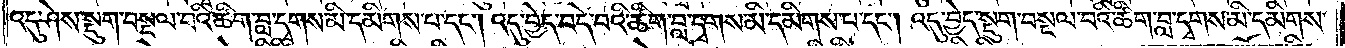འདུ་ཤེས་སྡུག་བསྔལ་བའི་ཚིག་བླ་དྭགས་མི་དམིགས་པ་དང༌། འདུ་བྱེད་བདེ་བའི་ཚིག་བླ་དྭགས་མི་དམིགས་པ་དང༌། འདུ་བྱེད་སྡུག་བསྔལ་བའི་ཚིག་བླ་དྭགས་མི་དམིགས་
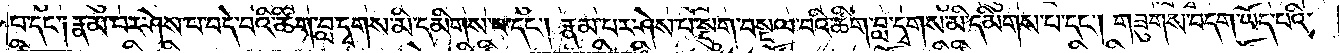པ་དང་༑ རྣམ་པར་ཤེས་པ་བདེ་བའི་ཚིག་བླ་དྭགས་མི་དམིགས་པ་དང༌། རྣམ་པར་ཤེས་པ་སྡུག་བསྔལ་བའི་ཚིག་བླ་དྭགས་མི་དམིགས་པ་དང༌། གཟུགས་བདག་ཡོད་པའི་
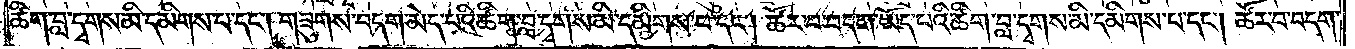ཚིག་བླ་དྭགས་མི་དམིགས་པ་དང༌། གཟུགས་བདག་མེད་པའི་ཚིག་བླ་དྭགས་མི་དམིགས་པ་དང༌། ཚོར་བ་བདག་ཡོད་པའི་ཚིག་བླ་དྭགས་མི་དམིགས་པ་དང༌། ཚོར་བ་བདག་
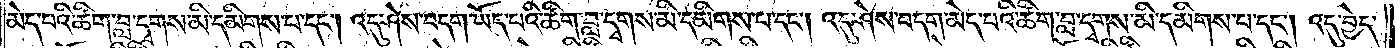མེད་པའི་ཚིག་བླ་དྭགས་མི་དམིགས་པ་དང༌། འདུ་ཤེས་བདག་ཡོད་པའི་ཚིག་བླ་དྭགས་མི་དམིགས་པ་དང༌། འདུ་ཤེས་བདག་མེད་པའི་ཚིག་བླ་དྭགས་མི་དམིགས་པ་དང༌། འདུ་བྱེད་
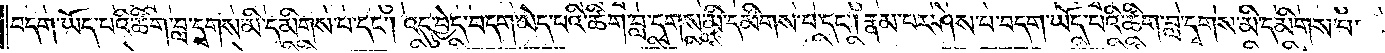བདག་ཡོད་པའི་ཚིག་བླ་དྭགས་མི་དམིགས་པ་དང༌། འདུ་བྱེད་བདག་མེད་པའི་ཚིག་བླ་དྭགས་མི་དམིགས་པ་དང༌། རྣམ་པར་ཤེས་པ་བདག་ཡོད་པའི་ཚིག་བླ་དྭགས་མི་དམིགས་པ་
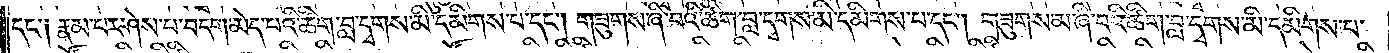དང་༑ རྣམ་པར་ཤེས་པ་བདག་མེད་པའི་ཚིག་བླ་དྭགས་མི་དམིགས་པ་དང༌། གཟུགས་ཞི་བའི་ཚིག་བླ་དྭགས་མི་དམིགས་པ་དང༌། གཟུགས་མ་ཞི་བའི་ཚིག་བླ་དྭགས་མི་དམིགས་པ་
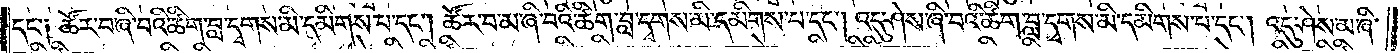དང་༑ ཚོར་བ་ཞི་བའི་ཚིག་བླ་དྭགས་མི་དམིགས་པ་དང༌། ཚོར་བ་མ་ཞི་བའི་ཚིག་བླ་དྭགས་མི་དམིགས་པ་དང༌། འདུ་ཤེས་ཞི་བའི་ཚིག་བླ་དྭགས་མི་དམིགས་པ་དང༌། འདུ་ཤེས་མ་ཞི་
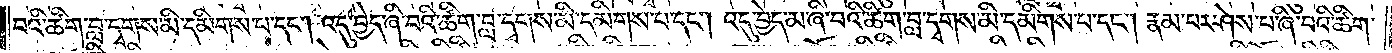བའི་ཚིག་བླ་དྭགས་མི་དམིགས་པ་དང༌། འདུ་བྱེད་ཞི་བའི་ཚིག་བླ་དྭགས་མི་དམིགས་པ་དང༌། འདུ་བྱེད་མ་ཞི་བའི་ཚིག་བླ་དྭགས་མི་དམིགས་པ་དང༌། རྣམ་པར་ཤེས་པ་ཞི་བའི་ཚིག་
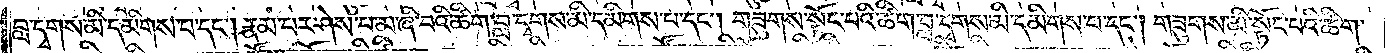བླ་དྭགས་མི་དམིགས་པ་དང༌། རྣམ་པར་ཤེས་པ་མ་ཞི་བའི་ཚིག་བླ་དྭགས་མི་དམིགས་པ་དང༌། གཟུགས་སྟོང་པའི་ཚིག་བླ་དྭགས་མི་དམིགས་པ་དང༌། གཟུགས་མི་སྟོང་པའི་ཚིག་
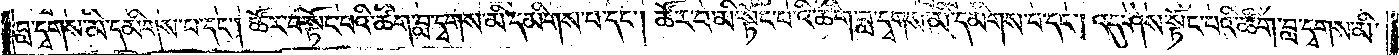བླ་དྭགས་མི་དམིགས་པ་དང༌། ཚོར་བ་སྟོང་པའི་ཚིག་བླ་དྭགས་མི་དམིགས་པ་དང༌། ཚོར་བ་མི་སྟོང་པའི་ཚིག་བླ་དྭགས་མི་དམིགས་པ་དང༌། འདུ་ཤེས་སྟོང་བའི་ཚིག་བླ་དྭགས་མི་
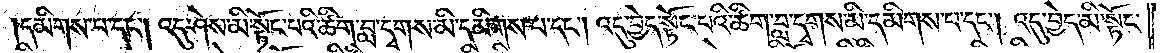དམིགས་པ་དང༌། འདུ་ཤེས་མི་སྟོང་པའི་ཚིག་བླ་དྭགས་མི་དམིགས་པ་དང༌། འདུ་བྱེད་སྟོང་པའི་ཚིག་བླ་དྭགས་མི་དམིགས་པ་དང༌། འདུ་བྱེད་མི་སྟོང་
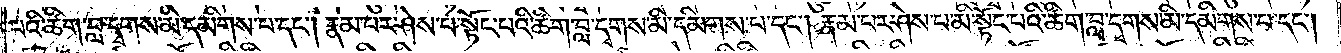པའི་ཚིག་བླ་དྭགས་མི་དམིགས་པ་དང༌། རྣམ་པར་ཤེས་པ་སྟོང་པའི་ཚིག་བླ་དྭགས་མི་དམིགས་པ་དང༌། རྣམ་པར་ཤེས་པ་མི་སྟོང་པའི་ཚིག་བླ་དྭགས་མི་དམིགས་པ་དང༌།
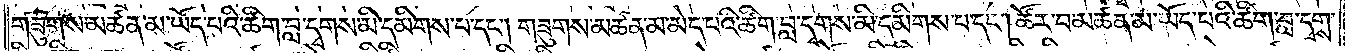གཟུགས་མཚན་མ་ཡོད་པའི་ཚིག་བླ་དྭགས་མི་དམིགས་པ་དང༌། གཟུགས་མཚན་མ་མེད་པའི་ཚིག་བླ་དྭགས་མི་དམིགས་པ་དང༌། ཚོར་བ་མཚན་མ་ཡོད་པའི་ཚིག་བླ་དྭགས་
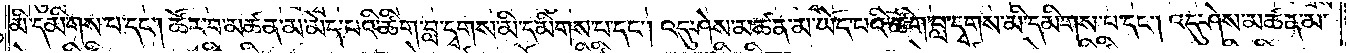མི་དམིགས་པ་དང༌། ཚོར་བ་མཚན་མ་མེད་པའི་ཚིག་བླ་དྭགས་མི་དམིགས་པ་དང༌། འདུ་ཤེས་མཚན་མ་ཡོད་པའི་ཚིག་བླ་དྭགས་མི་དམིགས་པ་དང༌། འདུ་ཤེས་མཚན་མ་
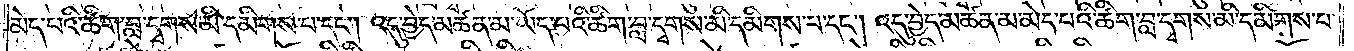མེད་པའི་ཚིག་བླ་དྭགས་མི་དམིགས་པ་དང༌། འདུ་བྱེད་མཚན་མ་ཡོད་པའི་ཚིག་བླ་དྭགས་མི་དམིགས་པ་དང༌། འདུ་བྱེད་མཚན་མ་མེད་པའི་ཚིག་བླ་དྭགས་མི་དམིགས་པ་
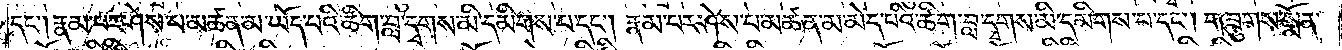དང༌། རྣམ་པར་ཤེས་པ་མཚན་མ་ཡོད་པའི་ཚིག་བླ་དྭགས་མི་དམིགས་པ་དང༌། རྣམ་པར་ཤེས་པ་མཚན་མ་མེད་པའི་ཚིག་བླ་དྭགས་མི་དམིགས་པ་དང༌། གཟུགས་སྨོན་
